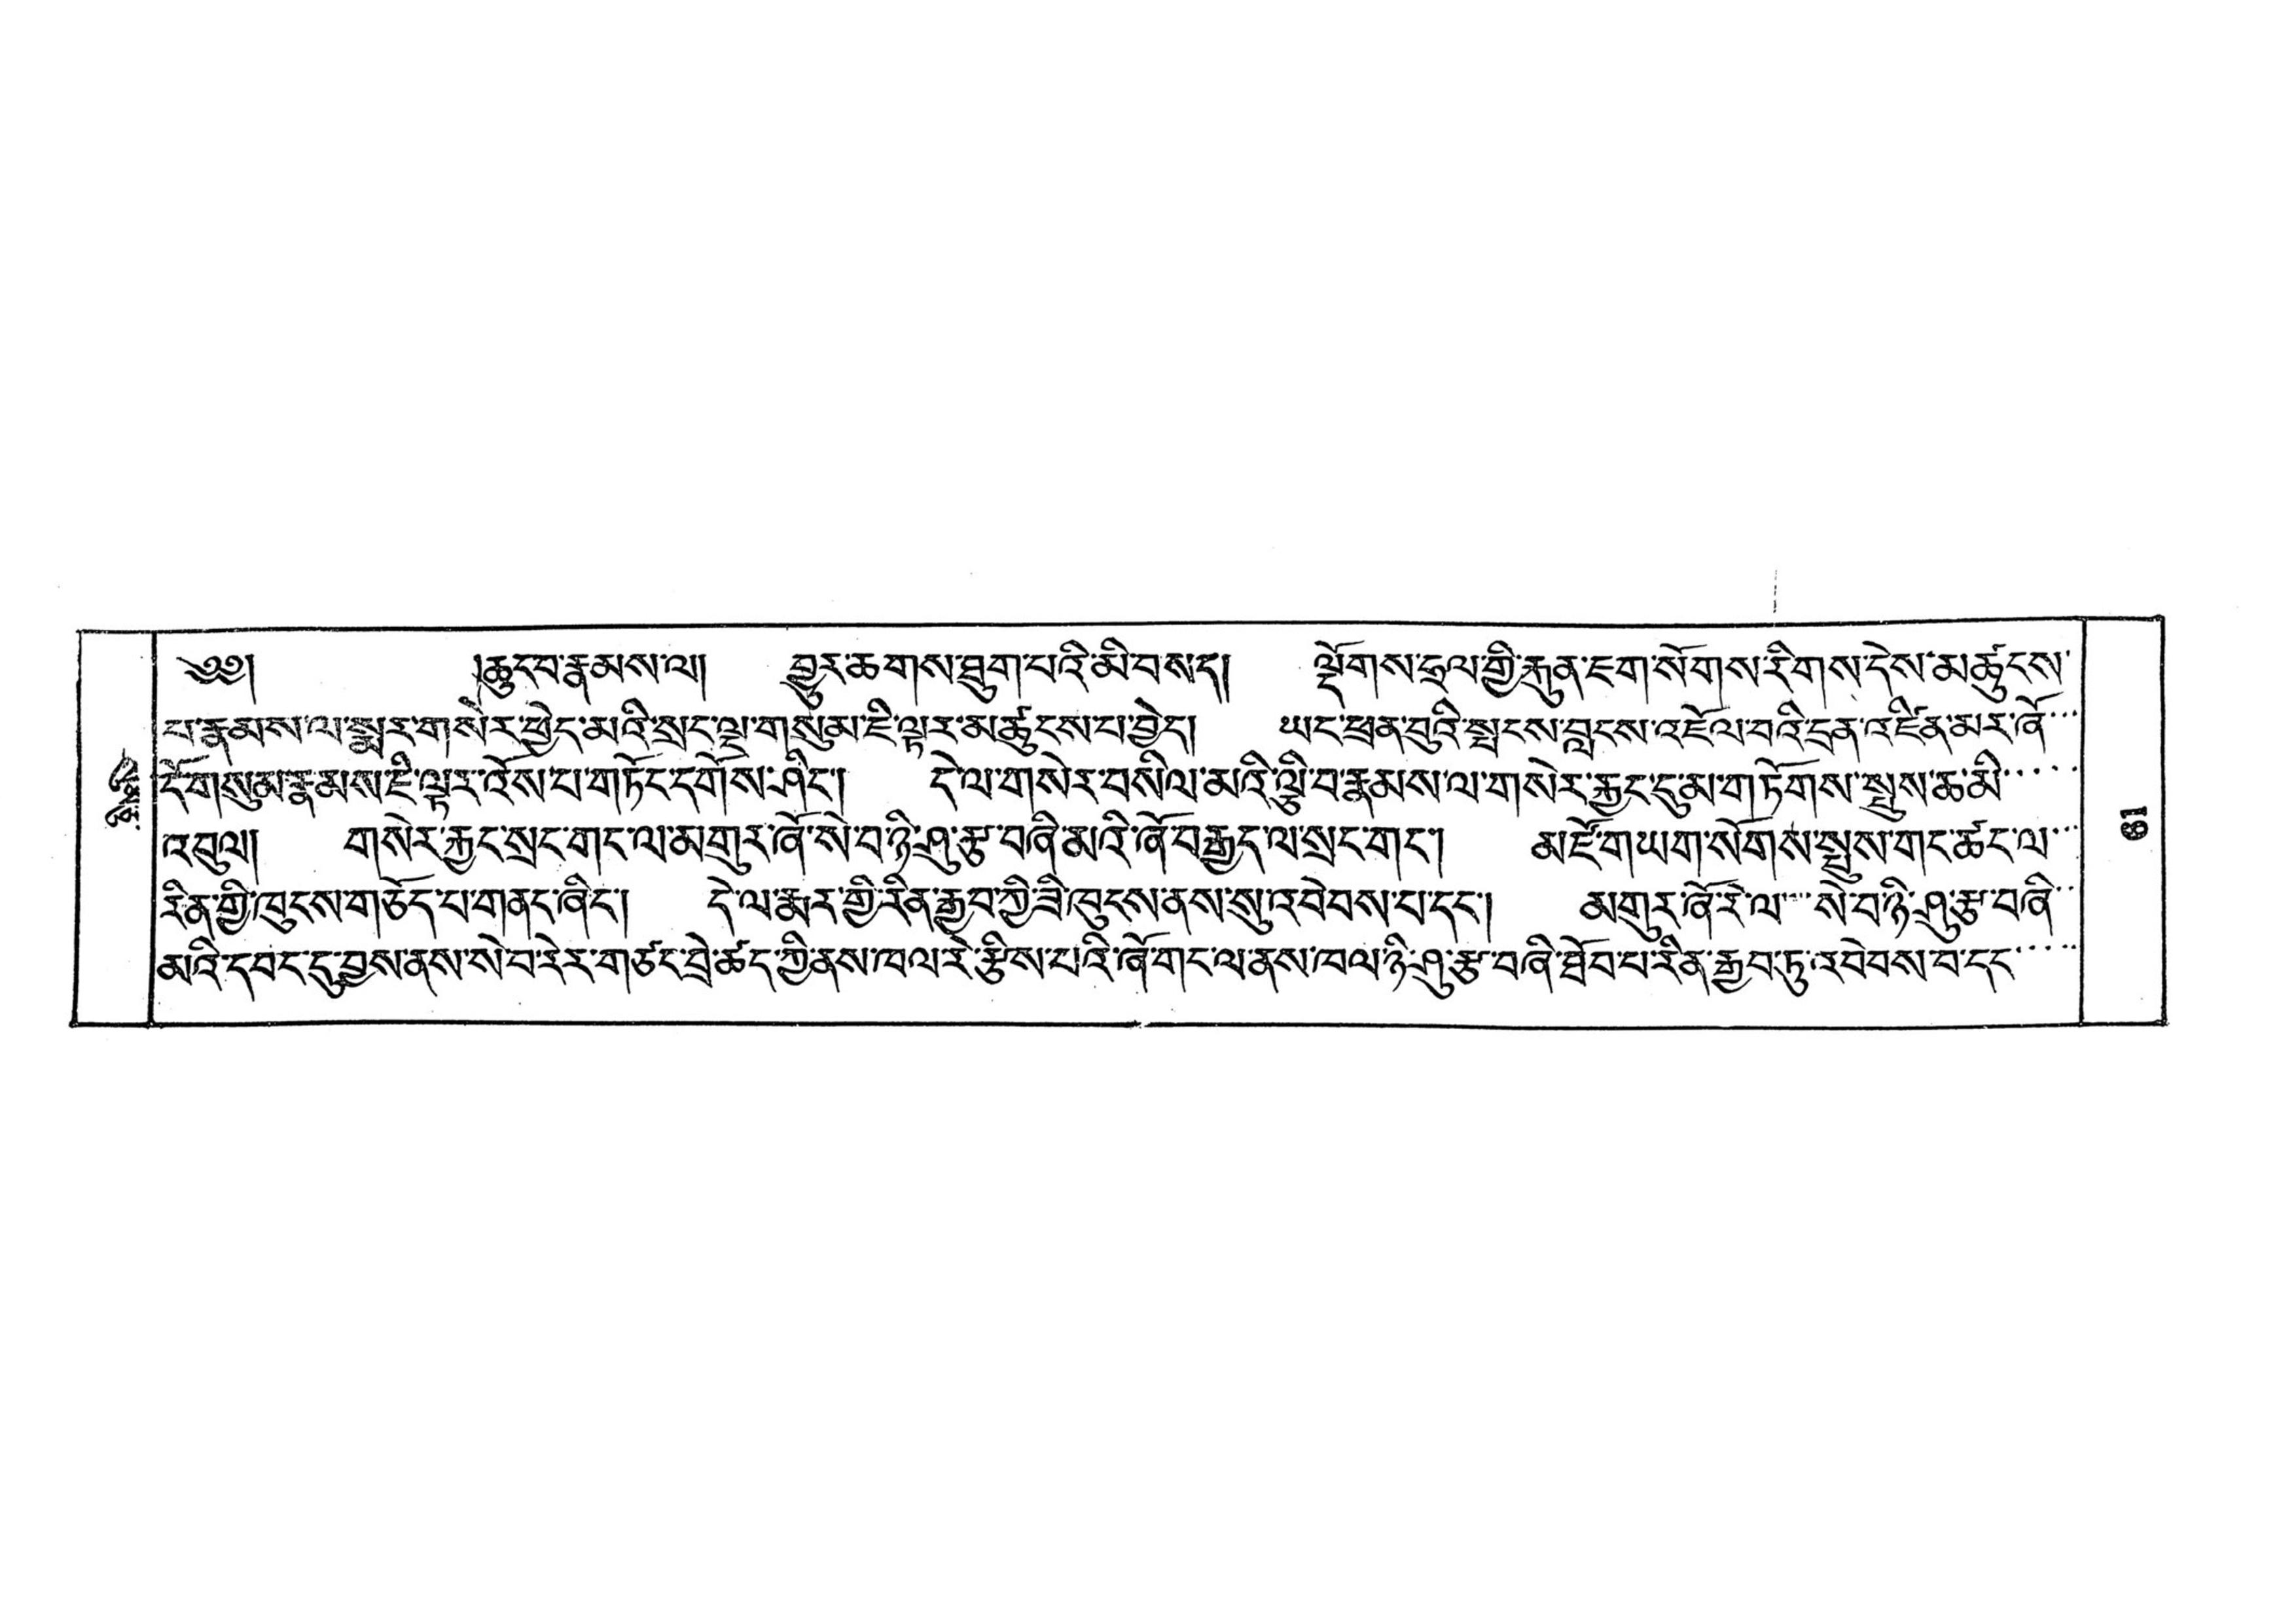སུམ་ཅུ་
༄༅།  །ཆུང་བ་རྣམས་ལ། བྱུར་ཆགས་ཐུག་པའི་མི་བསད། ལྡོགས་ཧྲལ་གྱི་རྐུན་ཇག་སོགས་རིགས་དེས་མཚུངས་
པ་རྣམས་ལ་སྨར་གསེར་ཕྱེད་མའི་སྲང་ལྔ་གསུམ་ཇི་ལྟར་མཚུངས་པ་བྱེད། ཡང་ཕྲན་བུའི་སྤངས་བླངས་འཇོལ་བའི་དྲན་འཛིན་མར་ཞོ་་་
དོ་གསུམ་རྣམས་ཇི་ལྟར་འོས་པ་གཏོང་དགོས་ཤིང་། དེ་ལ་གསེར་བསིལ་མའི་ལྕི་བ་རྣམས་ལ་གསེར་རྐྱང་དུ་མ་གཏོགས་སྤུས་ཆ་མི་་་་་
འབུལ། གསེར་རྐྱང་སྲང་གང་ལ་མགུར་ཞོ་སེ་བ་ཉི་ཤུ་རྩ་བཞི་མའི་ཞོ་བརྒྱད་ལ་སྲང་གང་། མཛོ་གཡག་སོགས་སྤུས་གང་ཚང་ལ་་་
རིན་གྱི་ཁུངས་གཅོད་པ་གནང་ཞིང་། དེ་ལ་རྨར་གྱི་རིན་རྒྱབ་ཀྱི་ཟི་ཁུངས་ནས་སུ་འབེབས་པ་དང་། མགུར་ཞོ་རེ་ལ་་་་སེ་བ་ཉི་ཤུ་རྩ་བཞི་་
མའི་དབང་དུ་བྱས་ནས་སེ་བ་རེར་གཙང་བྲེ་ཚད་ཀྱི་ནས་ཁལ་རེ་རྩིས་པའི་ཞོ་གང་ལ་ནས་ཁལ་ཉི་ཤུ་རྩ་བཞི་ཐོབ་པ་རིན་རྒྱབ་ཏུ་འབེབས་བ་དང་་་་་
